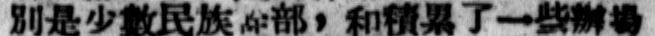別是少數民族幹部，和積累了一些辦場
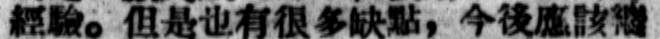經驗。但是也有很多缺點，今後應該繼
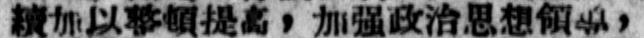續加以整頓提高，加強政治思想領導，
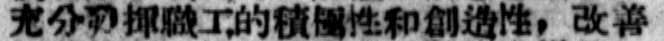充分發揮職工的積極性和創造性，改善
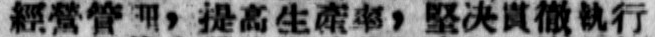經營管理，提高生產率，堅決貫徹執行
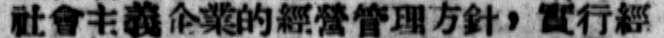社會主義企業的經營管理方針，實行經
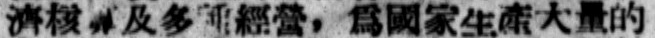濟核算及多種經營，爲國家生產大量的
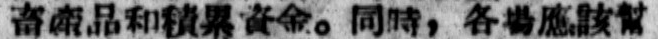畜產品和積累資金。同時，各場應該幫
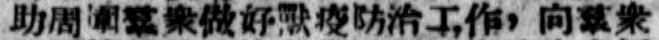助周圍羣衆做好獸疫防治工作，向羣衆
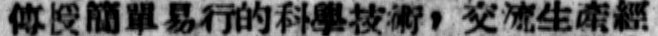傳授簡單易行的科學技術，交流生產經
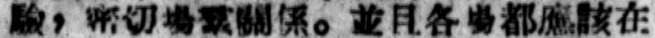驗，密切場羣關係。並且各場都應該在
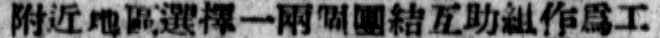附近地區選擇一兩個團結互助組作爲工
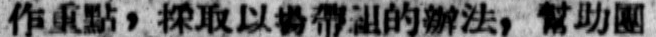作重點，採取以場帶組的辦法，幫助團
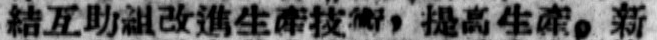結互助組改進生產技術，提高生產。新
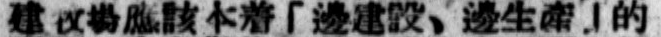建牧場應該本着「邊建設、邊生產」的
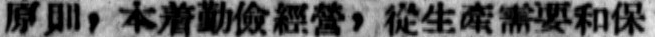原則，本着勤儉經營，從生產需要和保
